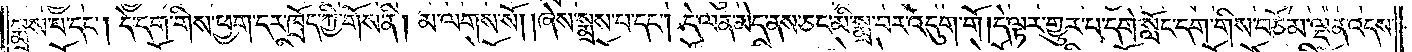སྨྲས་པ་དང༌། དེ་དག་གིས་ཕྱག་དར་ཁྲོད་ཀྱི་གོས་ནི། མ་ལགས་སོ། །ཞེས་སྨྲས་པ་དང༌། དེ་ལན་མེད་ནས་ཅང་མི་སྨྲ་བར་འདུག་གོ །དེ་ལྟར་གྱུར་པ་དགེ་སློང་དག་གིས་བཅོམ་ལྡན་འདས་
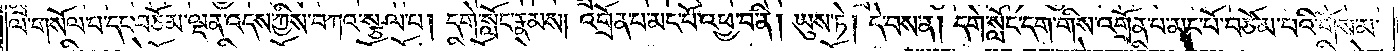ལ་གསོལ་པ་དང་བཅོམ་ལྡན་འདས་ཀྱིས་བཀའ་སྩལ་པ། དགེ་སློང་རྣམས། འགྲོན་པ་མང་པོ་འཕྱ་བ་ནི། ཡུས་ཏེ། དེ་བས་ན། དགེ་སློང་དག་གིས་འགྲོན་པ་མང་པོ་བཅོམ་པའི་གོས་མ་
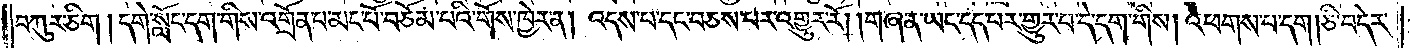བཀུར་ཅིག །དགེ་སློང་དག་གིས་འགྲོན་པ་མང་པོ་བཅོམ་པའི་གོས་ཁྱེར་ན། འདས་པ་དང་བཅས་པར་འགྱུར་རོ། །གཞན་ཡང་དད་པར་གྱུར་པ་དེ་དག་གིས། འཕགས་པ་དག །ཅི་བདེར་
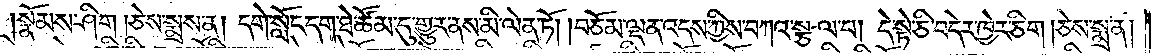སྣོམས་ཤིག །ཅེས་སྨྲས་ན། དགེ་སློང་དག་ཐེ་ཚོམ་དུ་གྱུར་ནས་མི་ལེན་ཏོ། །བཅོམ་ལྡན་འདས་ཀྱིས་བཀའ་སྩལ་པ། དེ་སྟེ་ཅི་བདེར་ཁྱེར་ཅིག །ཅེས་སྨྲ་ན༎
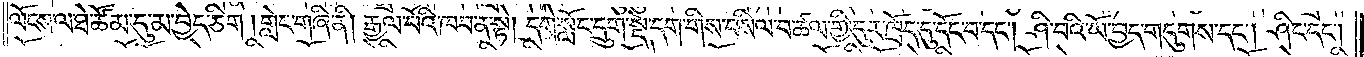ལོངས་ལ་ཐེ་ཚོམ་དུ་མ་བྱེད་ཅིག །གླེང་གཞི་ནི། རྒྱལ་པོའི་ཁབ་ན་སྟེ། དགེ་སློང་དྲུག་སྡེ་དག་གིས་བསིལ་བ་ཚལ་གྱི་དུར་ཁྲོད་དུ་དོང་བ་དང༌། ཤི་བའི་ཡོ་བྱད་གདུགས་དང༌། ཤིང་དང༌།
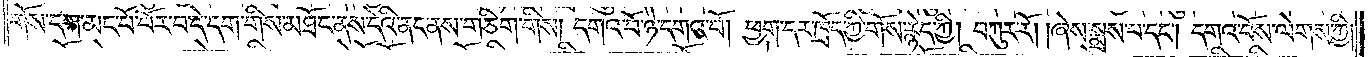གོས་དག་མང་པོ་བོར་བ་དེ་དག་གིས་མཐོང་ནས་དེའི་ནང་ནས་གཅིག་གིས། དགའ་བོ་ཉེ་དགའ་བོ། ཕྱག་དར་ཁྲོད་ཀྱི་གོས་རྙེད་ཀྱི། བཀུར་རོ། །ཞེས་སྨྲས་པ་དང༌། དགའ་བོས་ལེགས་ཀྱི།
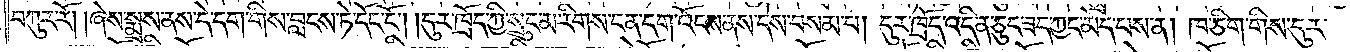བཀུར་རོ། །ཞེས་སྨྲས་ནས་དེ་དག་གིས་བླངས་ཏེ་དོང་ངོ༌། །དུར་ཁྲོད་ཀྱི་སྲུང་མ་རིགས་ངན་དག་འོངས་ནས་དེས་བསམ་པ། དུར་ཁྲོད་འདི་ན་ཅུང་ཟད་ཀྱང་མེད་པས་ན། ཁ་ཅིག་གིས་དུར་
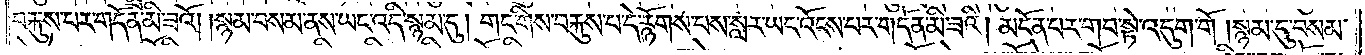བརྐུས་པར་གདོན་མི་ཟའོ། །སྙམ་བསམ་ནས་ཡང་འདི་སྙམ་དུ། གང་གིས་བརྐུས་པ་དེ་རྙོགས་པས་སླར་ཡང་འོངས་པར་གདོན་མི་ཟའི། མངོན་པར་གབ་སྟེ་འདུག་གོ །སྙམ་དུ་བསམ་
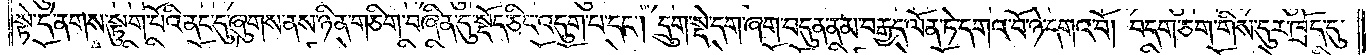སྟེ་དེ་ནགས་སྟུག་པོའི་ནང་དུ་ཞུགས་ནས་ཉིན་གཅིག་བཞིན་དུ་སྡོད་ཅིང་འདུག་པ་དང༌། དྲུག་སྡེ་དག་ཞག་བདུན་ནམ་བརྒྱད་ལོན་ཏེ་དགའ་བོ་ཉེ་དགའ་བོ། བདག་ཅག་གིས་དུར་ཁྲོད་དུ་
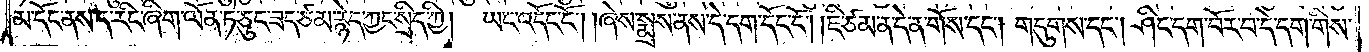མ་དོང་ནས་ད་རིང་ཞིག་ལོན་ཏེ་ཅུང་ཟད་ཙམ་རྙེད་ཀྱང་སྲིད་ཀྱི། ཡང་འདོང་ངོ༌། །ཞེས་སྨྲས་ནས་དེ་དག་དོང་ངོ༌། །ཇི་ཙམ་ན་དེ་ན་གོས་དང༌། གདུགས་དང༌། ཤིང་དག་བོར་བ་དེ་དག་གིས་
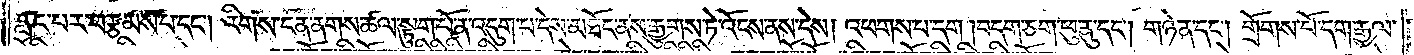བླང་པར་བརྩམས་པ་དང༌། རིགས་ངན་ནགས་ཚལ་སྟུག་པོ་ན་འདུག་པ་དེས་མཐོང་ནས་རྒྱུགས་ཏེ་འོངས་ནས་དེས། འཕགས་པ་དག། བདག་ཅག་ཕུ་ནུ་དང༌། གཉེན་དང༌། གྲོགས་པོ་དག་རྒྱལ་
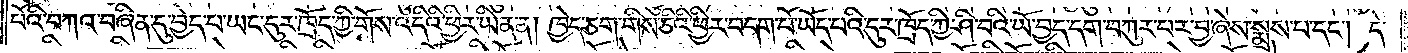པོའི་བཀའ་བཞིན་དུ་བྱེད་པ་ཡང་དུར་ཁྲོད་ཀྱི་གོས་འདིའི་ཕྱིར་ཡིན་ན། ཁྱེད་ཅག་གིས་ཅིའི་ཕྱིར་བདག་པོ་ཡོད་པའི་དུར་ཁྲོད་ཀྱི་ཤི་བའི་ཡོ་བྱད་དག་བཀུར་པར་བྱ་ཞེས་སྨྲས་པ་དང༌། དེ་
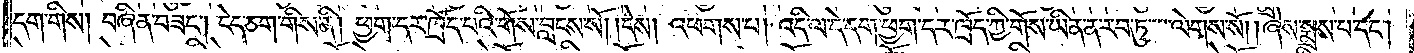དག་གིས། བཞིན་བཟང༌། ངེད་ཅག་གིས་ནི། ཕྱག་དར་ཁྲོད་པའི་གོས་བླངས་སོ། །དེས། འཕགས་པ། འདི་ལ་དེ་དག་ཕྱག་དར་ཁྲོད་ཀྱི་གོས་ཡིན་ན་རབ་ཏུ་ལེགས་སོ། །ཞེས་སྨྲས་པ་དང༌།
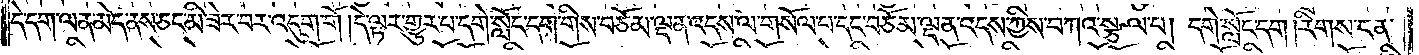དེ་དག་ལན་མེད་ནས་ཅང་མི་ཟེར་བར་འདུག་གོ །དེ་ལྟར་གྱུར་པ་དགེ་སློང་དག་གིས་བཅོམ་ལྡན་འདས་ལ་གསོལ་པ་དང་བཅོམ་ལྡན་འདས་ཀྱིས་བཀའ་སྩལ་པ། དགེ་སློང་དག །རིགས་ངན་
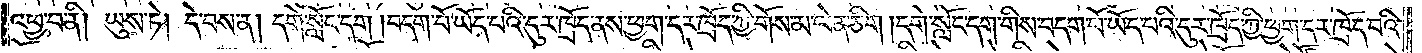འཕྱ་བ་ནི། ཡུས་ཏེ། དེ་བས་ན། དགེ་སློང་དག །བདག་པོ་ཡོད་པའི་དུར་ཁྲོད་ནས་ཕྱག་དར་ཁྲོད་ཀྱི་གོས་མ་ལེན་ཅིག །དགེ་སློང་དག་གིས་བདག་པོ་ཡོད་པའི་དུར་ཁྲོད་ཀྱི་ཕྱག་དར་ཁྲོད་པའི་
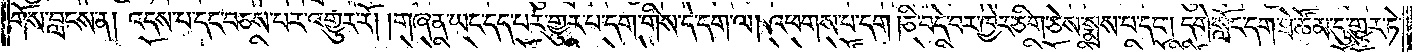གོས་བླངས་ན། འདས་པ་དང་བཅས་པར་འགྱུར་རོ། །གཞན་ཡང་དད་པར་གྱུར་པ་དག་གིས་དེ་དག་ལ། འཕགས་པ་དག །ཅི་བདེ་བར་ཁྱེར་ཅིག་ཅེས་སྨྲས་པ་དང༌། དགེ་སློང་དག་ཐེ་ཚོམ་དུ་གྱུར་ཏེ་
